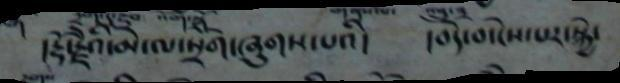།རྡོ་རྗེའི་མེ་ལ་སྲོག་ཞུགས་པའི།    །བདེ་བ་ངེསཔར་སྐྱེ་
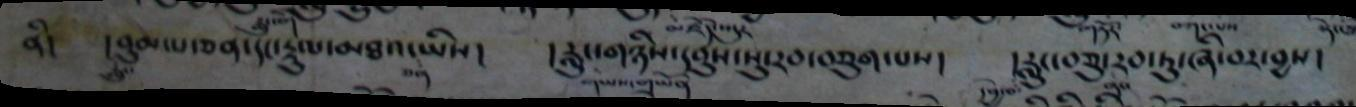ནི།   །བུམ་པ་ཅན་དང་རྡུལ་མཐའ་ཡིས།   །རླུང་གཉིས་དབུས་སུ་རབ་བཅུག་པས།   །རླུང་བཅུ་རབ་ཏུ་ཞི་བར་བྱས།
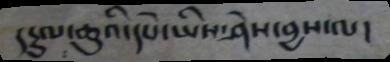།རྔུལ་ཆུའི་དཔེ་ཡིས་ཤེས་བྱས་ལ།
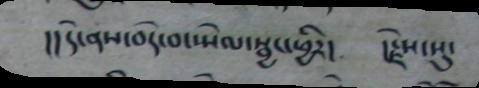།།དེ་ནས་བདེ་བ་སྤེལ་སྦྱང་ཕྱིར། །རྗེས་སུ་
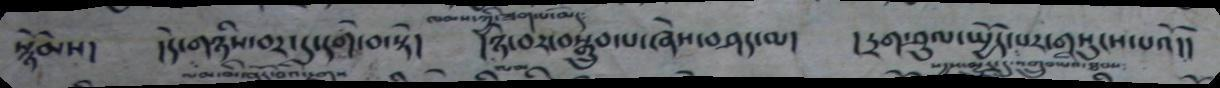སྙོམས།   །དེ་གཉིས་བར་དུ་དགེ་བ་སྟེ།   །ཉེ་བར་བསྒྲུབ་པ་ཞེས་བཤད་ལ།   །དྲག་ཤུལ་སྤྱོད་པར་གསུངས་པའོ།།
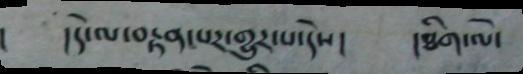། །དེ་ལ་བྲཏན་པར་གྱུར་པ་དེས། །ཐིག་ལེ་
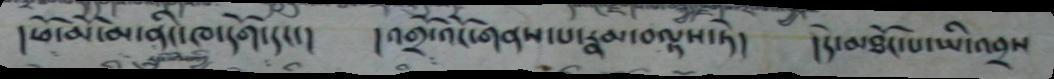།ཕོ་མོ་མ་ནིང་ཁ་དོག་དང་། །འགྲོ་འོང་གནས་པ་རྣམ་བལྟས་ཏེ། །དེ་མཐོང་པ་ཡི་འབྲས
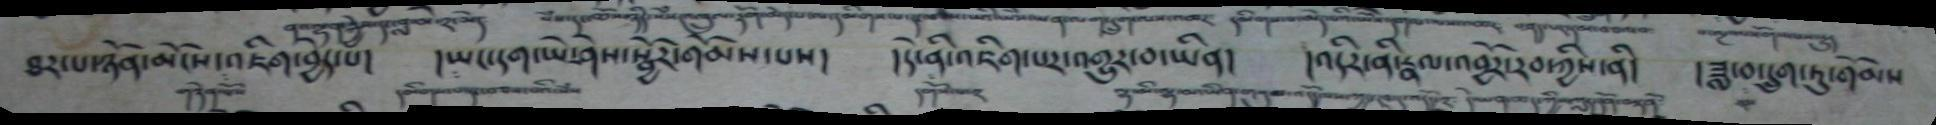ཐར་པ་ཉོན་མོངས་འཇིག་བྱེད་པ།   །ཡང་དག་ཡེ་ཤེས་སྦྱོར་གོམས་པས།  །དེ་ནི་འཇིག་པར་འགྱུར་བ་ཡིན།   །འདིར་ནི་རྣལ་འབྱོར་རབ་ཀྱིས་ནི།  །ཟླ་བ་དྲུག་ཏུ་གོམས
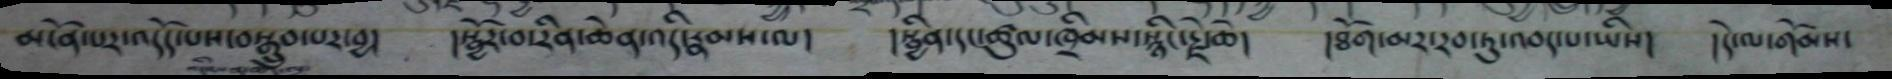མངོན་པར་འདོད་པས་བསྒྲུབ་པར་བྱ། །སྦྱོར་བ་རིན་ཆེན་འདི་རྣམས་ལ། །སྦྱིན་དང་ཚུལ་ཁྲིམས་སྙིང་རྗེ་ཆེ། །ཐོག་མར་རབ་ཏུ་འབད་པ་ཡིས། །དེ་ལ་གོམས་
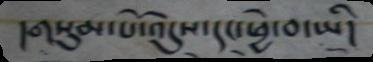།གསུམ་པོ་འདུས་དང་ཕྱེ་བ་ཡི།
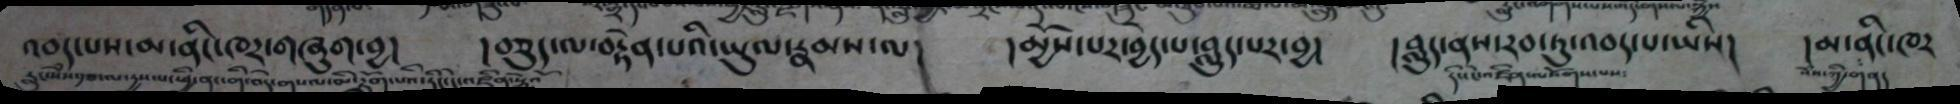འབད་པས་མ་ནིང་ཁར་གཞུག་བྱ།    །བཅུད་ལ་བརྟེན་པའི་ཡུལ་རྣམས་ལ།    །མྱོས་པར་བྱེད་པ་བླུད་པར་བྱ།   །བླུད་ནས་རབ་ཏུ་འབད་པ་ཡིས།   །མ་ནིང་ཁར
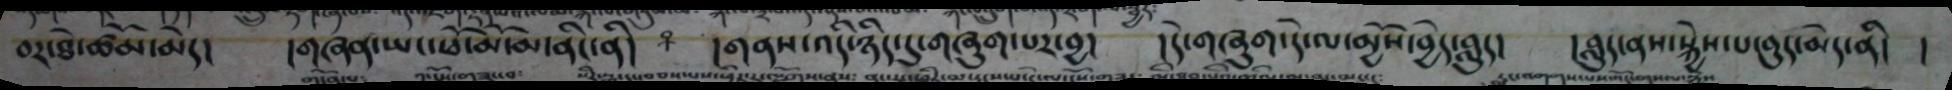བར་ཐེ་ཚོམ་མེད།    །གཞན་ཡང་ཕ་་མོ་མ་ནིང་ནི།   ༐	།གནས་འདི་ཉིད་དུ་གཞུག་པར་བྱ།   །དེ་གཞུག་ད་ེལ་མྱོས་བྱེ་བླུད།   །བླུད་ནས་སྐྱེས་པ་བུད་མེད་ནི།   །
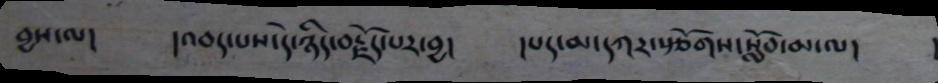བྱལ་ལ། །འབད་པས་དེ་ཉིད་བརྗོད་པར་བྱ། །པད་མ་དཀར་སྩོགས་སློབ་མ་ལ།
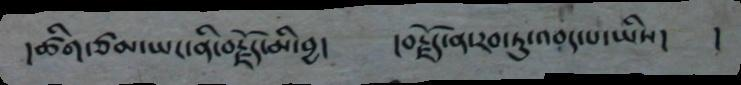།ཚིག་ཙམ་ཡང་ནི་བརྗོད་མི་བྱ། །བརྗོད་ན་རབ་ཏུ་འབད་པ་ཡིས། །
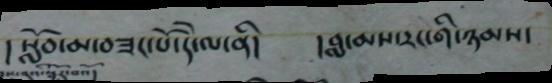།སློབ་མ་བཟང་པོ་དེ་ལ་ནི།   །བླ་མས་རང་གི་ཉམས་
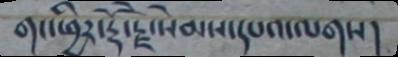གང་ཕྱིར་རྡོ་རྗེ་སེམས་དཔའ་ལགས།
